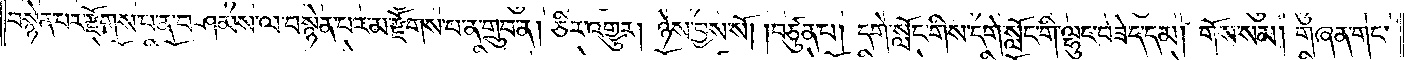བསྙེན་པར་རྫོགས་པ་ན་བཤམས་ལ་བསྙེན་པར་མ་རྫོགས་པ་ན་གྲུབ་ན། ཅིར་འགྱུར། ཉེས་བྱས་སོ། །བཙུན་པ། དགེ་སློང་གིས་དགེ་སློང་གི་ལྷུང་བཟེད་དམ། གོས་སམ། གཞན་གང་
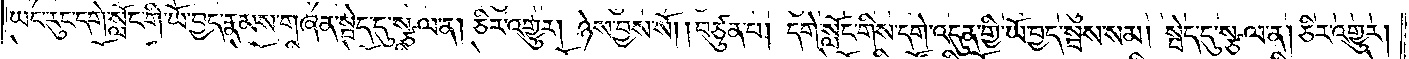ཡང་རུང་དགེ་སློང་གི་ཡོ་བྱད་རྣམས་གཞན་སྦེད་དུ་སྩལ་ན། ཅིར་འགྱུར། ཉེས་བྱས་སོ། །བཙུན་པ། དགེ་སློང་གིས་དགེ་འདུན་གྱི་ཡོ་བྱད་སྦས་སམ། སྦེད་དུ་སྩལ་ན། ཅིར་འགྱུར།
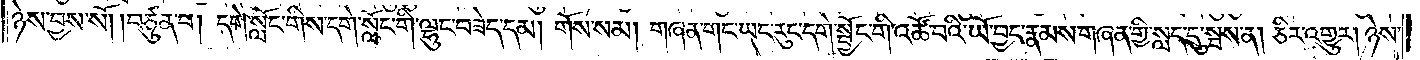ཉེས་བྱས་སོ། །བཙུན་པ། དགེ་སློང་གིས་དགེ་སློང་གི་ལྷུང་བཟེད་དམ། གོས་སམ། གཞན་གང་ཡང་རུང་དགེ་སྦྱོང་གི་འཚོ་བའི་ཡོ་བྱད་རྣམས་གཞན་གྱི་སླད་དུ་སྦས་ན། ཅིར་འགྱུར། ཉེས་
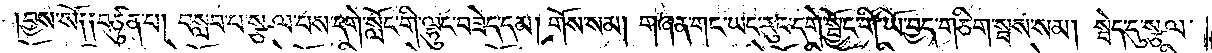བྱས་སོ༑ ༑བཙུན་པ། བསླབ་པ་སྩལ་པས་དགེ་སློང་གི་ལྷུང་བཟེད་དམ། གོས་སམ། གཞན་གང་ཡང་རུང་དགེ་སྦྱོང་གི་ཡོ་བྱད་གཅིག་སྦས་སམ། སྦེད་དུ་སྩལ་
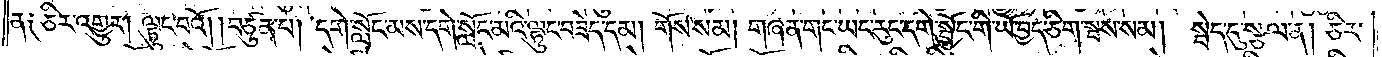ན༑ ཅིར་འགྱུར། ལྟུང་བའོ། །བཙུན་པ། དགེ་སློང་མས་དགེ་སློང་མའི་ལྷུང་བཟེད་དམ། གོས་སམ། གཞན་གང་ཡང་རུང་དགེ་སྦྱོང་གི་ཡོ་བྱད་ཅིག་སྦས་སམ། སྦེད་དུ་སྩལ་ན། ཅིར་
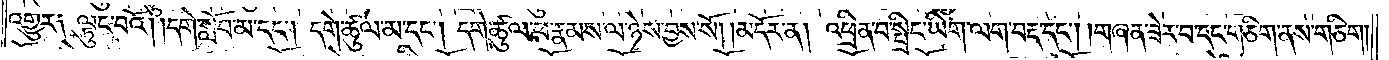འགྱུར༑ ལྟུང་བའོ། །དགེ་སློབ་མ་དང༌། དགེ་ཚུལ་མ་དང༌། དགེ་ཚུལ་ཕ་རྣམས་ལ་ཉེས་བྱས་སོ། །མདོར་ན། འཕྲིན་པ་སྤྲིང་ཡིག་ལག་བརྡ་དང༌། །གཞན་ཟེར་བ་དང་གཅིག་ནས་གཅིག།
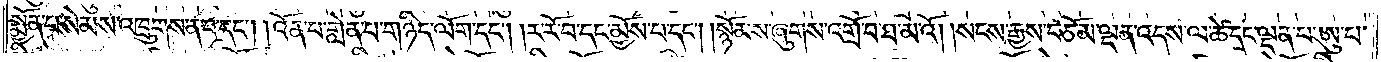སྨྱོན་པ་སེམས་འཁྲུགས་ན་བ་དང༌། །འོན་པ་གླེན་པ་གཉིད་ལོག་དང༌། །ར་རོ་བ་དང་མྱོས་པ་དང༌། །སྙོམས་ཞུགས་འགྲོ་བ་ཐ་མའོ། །སངས་རྒྱས་བཅོམ་ལྡན་འདས་ལ་ཚེ་དང་ལྡན་པ་ཨུ་པ་
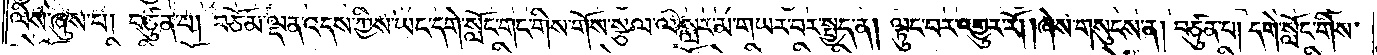ལིས་ཞུས་པ། བཙུན་པ། བཅོམ་ལྡན་འདས་ཀྱིས་ཡང་དགེ་སློང་གང་གིས་གོས་སྩལ་ལ་སླར་མ་གཡར་བར་སྤྱད་ན། ལྟུང་བར་འགྱུར་རོ། །ཞེས་གསུངས་ན། བཙུན་པ། དགེ་སློང་གིས་
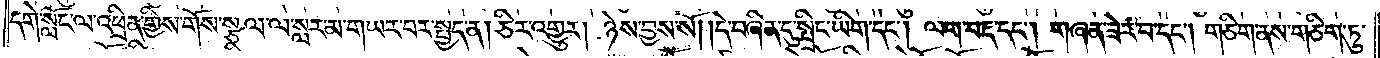དགེ་སློང་མ་འཕྲིན་གྱིས་གོས་སྩལ་ལ་སླར་མ་གཡར་བར་སྤྱད་ན། ཅིར་འགྱུར། ཉེས་བྱས་སོ། །དེ་བཞིན་དུ་སྤྲིང་ཡིག་དང༌། ལག་བརྡ་དང༌། གཞན་ཟེར་བ་དང༌། གཅིག་ནས་གཅིག་ཏུ་
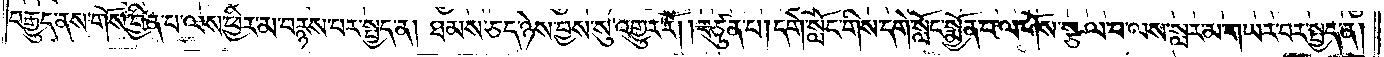བརྒྱུད་ནས་གོས་བྱིན་པ་ལས་ཕྱིར་མ་བརྙས་པར་སྤྱད་ན། ཐམས་ཅད་ཉེས་བྱས་སུ་འགྱུར་རོ། །བཙུན་པ། དགེ་སློང་གིས་དགེ་སློང་སྨྱོན་པ་ལ་གོས་སྩལ་པ་ལས་སླར་མ་གཡར་བར་སྤྱད་ན།
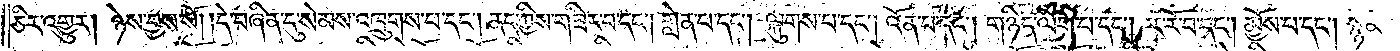ཅིར་འགྱུར། ཉེས་བྱས་སོ། །དེ་བཞིན་དུ་སེམས་འཁྲུགས་པ་དང༌། ནད་ཀྱིས་གཟིར་བ་དང༌། གླེན་པ་དང༌། ལྐུགས་པ་དང༌། འོན་པ་དང༌། གཉིད་ལོག་པ་དང༌། ར་རོ་བ་དང༌། མྱོས་པ་དང༌། སྙོམས་
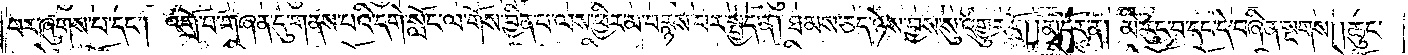པར་ཞུགས་པ་དང༌། འགྲོ་བ་གཞན་དུ་གནས་པའི་དགེ་སློང་ལ་གོས་བྱིན་པ་ལས་ཕྱིར་མ་བརྙས་པར་སྤྱད་ན། ཐམས་ཅད་ཉེས་བྱས་སུ་འགྱུར་རོ། །མདོར་ན། མི་རུང་བ་དང་དེ་བཞིན་སྔགས། །ཆུང་
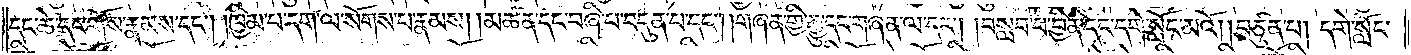དང་ཆེ་དང་གོས་རྣམས་དང༌། །ཁྱིམ་པ་དག་ལ་སོགས་པ་རྣམས། །མཚན་དང་བཞི་པ་བདུན་པ་དང༌། །གཞན་གྱི་རྒྱུ་དང་གཞན་ལ་དང༌། །བསླབ་པ་བྱིན་དང་དགེ་སློང་མའོ། །བཙུན་པ། དགེ་སློང་
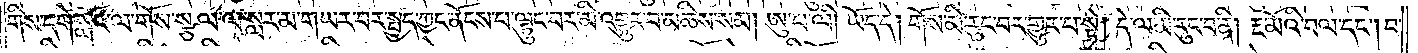གིས་དགེ་སློང་ལ་གོས་སྩལ་ལ་སླར་མ་གཡར་བར་སྤྱད་ཀྱང་ནོངས་པ་ལྟུང་བར་མི་འགྱུར་བ་མཆིས་སམ། ཨུ་པ་ལི། ཡོད་དེ། གོས་མི་རུང་བར་གྱུར་བ་སྟེ། དེ་ལ་མི་རུང་བ་ནི། རྔ་མོའི་བལ་དང༌། བ་
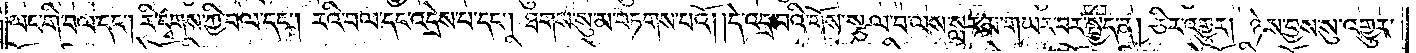ལང་གི་བལ་དང༌། རི་དྭགས་ཀྱི་བལ་དང༌། རའི་བལ་དང་འདྲེས་པ་དང༌། ཐགས་སུ་མ་བཏགས་པའོ། །དེ་འདྲ་བའི་གོས་སྩལ་པ་ལས་སླར་མ་གཡར་བར་སྤྱད་ན། ཅིར་འགྱུར། ཉེས་བྱས་སུ་འགྱུར་
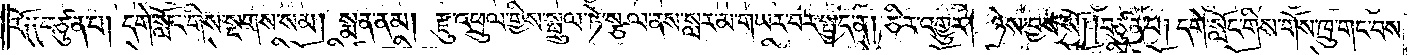རོ༑ ༑བཙུན་པ། དགེ་སློང་གིས་སྔགས་སམ། སྨན་ནམ། རྫུ་འཕྲུལ་གྱིས་སྤྲུལ་ཏེ་སྩལ་ནས་སླར་མ་གཡར་བར་སྤྱད་ན། ཅིར་འགྱུར། ཉེས་བྱས་སོ། །བཙུན་པ། དགེ་སློང་གིས་གོས་ཁྲུ་གང་བས་
